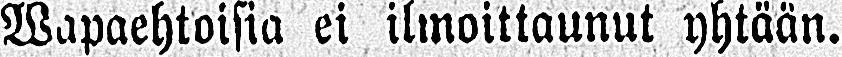Wapaehtoisia ei ilmoittaunut yhtään.
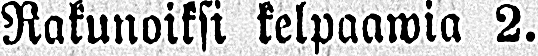Rakunoiksi kelpaawia 2.
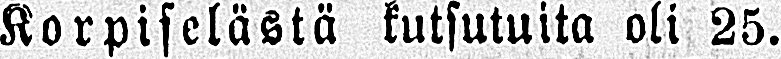Korpiselästä kutsututta oli 25.
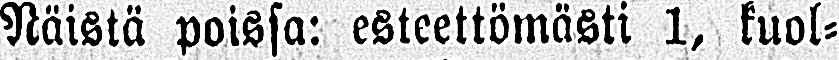Näistä poissa: esteettömästi 1, kuol-
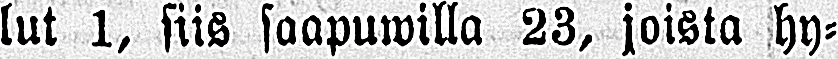lut 1, siis saapuwilla 23, joista hy-
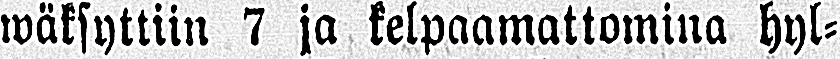wäksyttiin 7 ja kelpaamattomina hyl-
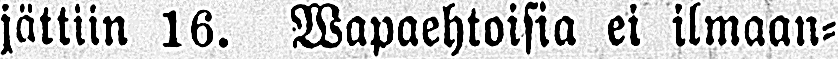jättiin 16. Wapaehtoisia ei ilmaan-
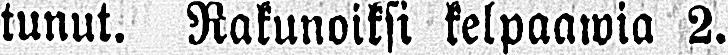tunut. Rakunoiksi kelpaawia 2.
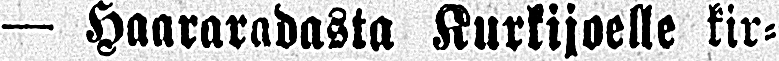— Haararadasta Kurkijoelle kir-
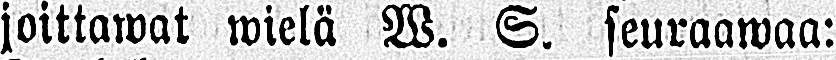joittawat wielä W. S. seuraawaa:
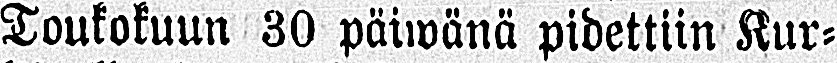Toukokuun 30 päiwänä pidettiin Kur-
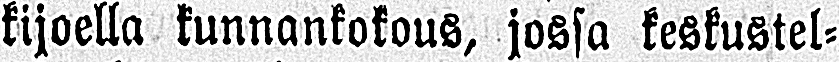kijoella kunnankokous, jossa keskustel-
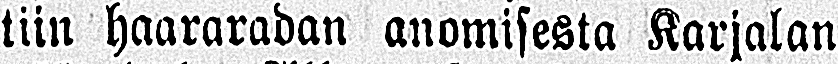tiin haararadan anomisesta Karjalan
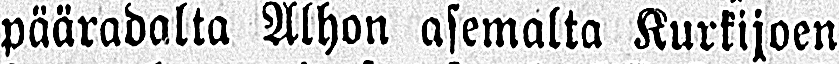pääradalta Alhon asemalta Kurkijoen
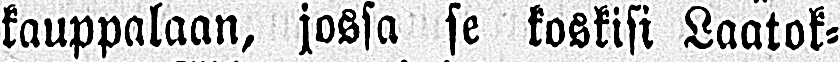kauppalaan, jossa se koskisi Laatok-
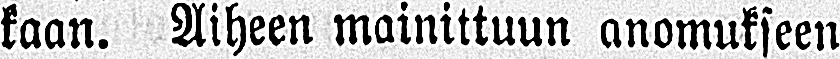kaan. Aiheen mainittuun anomukseen
